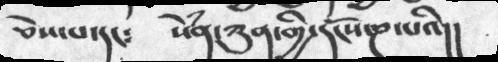ཅེས་པ་དང༴  སེཾན་ཀུན་གྱི་དངོས་ཎ་པའི།།
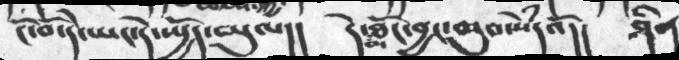ངོ་བོ་དེ་ཡང་དེ་སྤྱོད་ཡུལ།།   དེ་མཐོང་བྱང་ཆུབ་སེཾདའོ།།  ཤིན
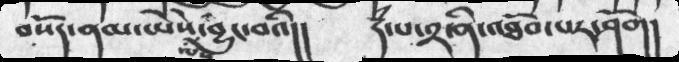བསོད་ནམ་ཡེེས་ལས་བྱུང་བའི།།  དཾ་པ་༢་ནི་འཐོབ་པར་ཤོག།
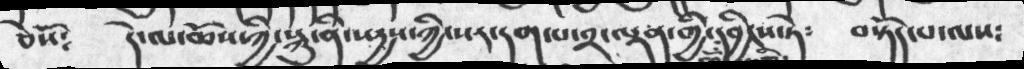ཅེས༴  དེ་ལ་ཆོས་ཀྱི་སྐུ་ནི་སདྱས་ཀྱི་སར་དག་པ་༢་ལྡན་གྱི་དབྱིངས་སྟེ༴    བསྟོད་པ་ལས༴
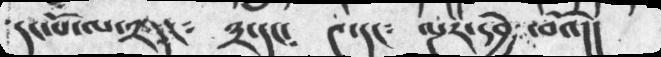དང་པོ་ལ་༢་དང༴  ༣་དང༴  ༤་དང༴  ལྔར་དབྱེ ་བའོ།།
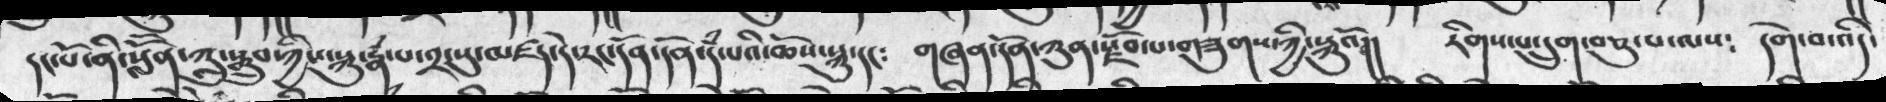དང་པོ་ནི་སློོན་ཀླུ་སྒྲུ་ཀྱིས་སྐུ་རྣཾ་པ་༢་སུ་མཛད་དེ་རང་དོན་དོན་དཾ་པའི་ཆོས་སྐུ་དང༴  གཞན་དོན་ཀུན་རྫོབ་པ་གཟུགས་ཀྱི་སྐུའོ།།   རིགས་པ་དྲུག་བཅུ་པ་ལས༴   དགེ་བ་འདི་
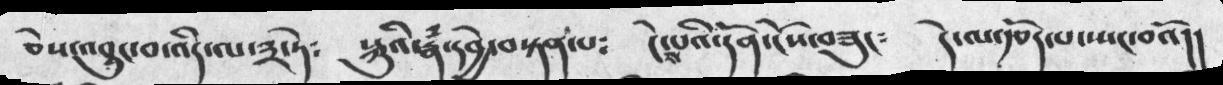ཅེས་འབྱུང་བ་འདི་ལ་༣་ཏེ༴   སྐུའི་རྣཾ་དབྱེ་བསྟན་པ༴    ངེས་པའི་དོན་ངོས་་བཟུང༴   དེ་ལ་རྩོད་པ་སྤང་བའོ།།
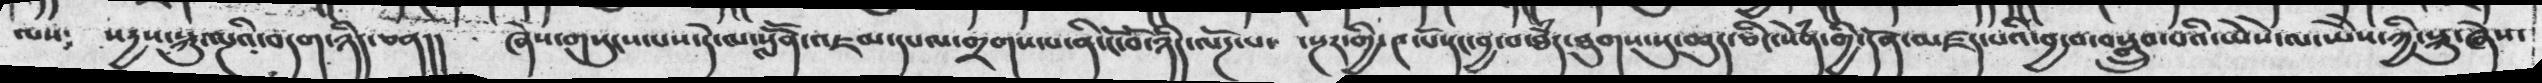ལས༴  སདྱས་སྐུ་ལྔའི་བདག་ཉིད་ཅན།།   ཞེས་གསུངས་པས་དེ་ལ་སློོན་འཇམ་དཔལ་གྲགས་པ་ནི་ངོ་བོ་ཉིད་ལོཌ་པ་  ་སྔར་གྱི་༤་པོ་དང་བྱ་བ་ཐཾད་ཐུགས་སུ་ཆུད་ཅིང་སེཾན་གྱི་དོན་མཛད་པའི་བྱ་བ་བསྒྲུབ་པའི་ཡཻས་ལ་ཡཻས་ཀྱི་སྐུ་ཞེས་
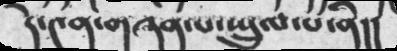དེ་༤ན་གཞན་པ་སྤྲུལ་པ་ནི།།
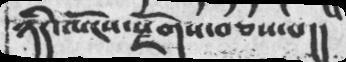ཉིད་ལོངས་རྫོགས་བཅས་པ།།
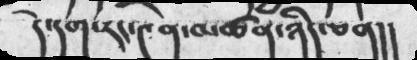དེ་དག་རང་༤ན་མཚན་ཉིད་ཅན།།
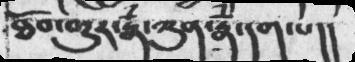ཐོབ་གྱུར་རྣཾ་ཀུན་རྣཾ་དག་པ།།
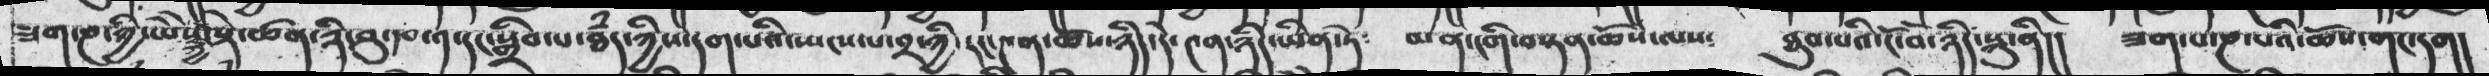ཟག་ཎ་ཀྱི་ཡེེས་ཀྱི་སྟེ་ཚན་ཉི་ཤུ་རྩ་༡་དང་སྒྲིབ་པ་ཐྃད་ཀྱིས་དག་པའི་སྤངས་པ་༢་ཀྱི་རང་༤ན་ཆོས་ཉིད་ཡིན་ཏེ༴  མན་ངགི་བསྟན་ཆོས་ལས༴   ཐུབ་པའི་ངོ་བོ་ཉིད་སྐུ་ནི།།   ཟག་པ་ཎ་པའི་ཆོས་གང་དག།
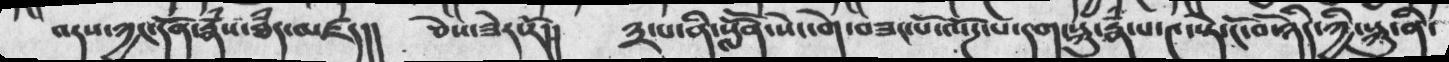འདས་ཀྱང་དོན་རྣཾས་ཐཾད་མཛད།།  ཅེས་ཟེར་རོ།།  ༣་པ་ནི་སློོན་སེང་གེ་བཟང་པོ་ལོཌ་པ་དག་སྐུ་རྣཾ་པ་༤་སྟེ་ངོ་བོ་ཉིད་ཀྱི་སྐུ་ནི་
